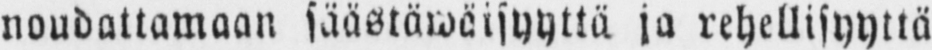noudattamaan säästäwäisyyttä ja rehellisyyttä
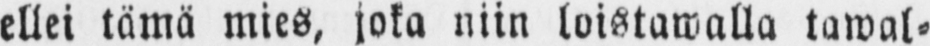ellei tämä mies, joka niin loistawalla tawal-
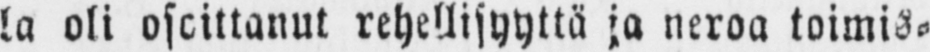la oli osoittanut rehellisyyttä ja neroa toimis-
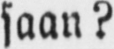saan?
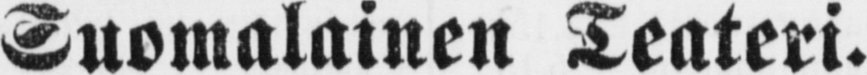Suomalainen Teateri.
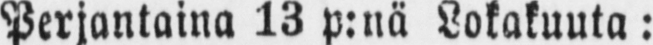Perjantaina 13 p:nä Lokakuuta:
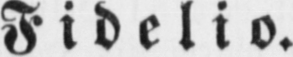Fidelio.
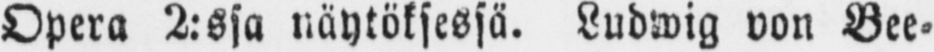Opera 2:ssa näytöksessä. Ludwig von Bee-
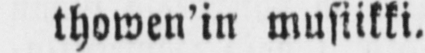thowen’in musiikki.
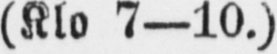(Klo 7—10.)
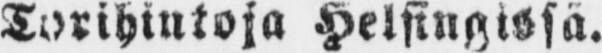Torihintoja Helsingissä.
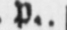p.
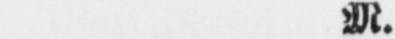M.
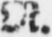M.
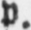p.
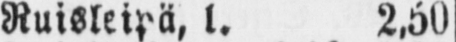Ruisleipä, l. 2,50
